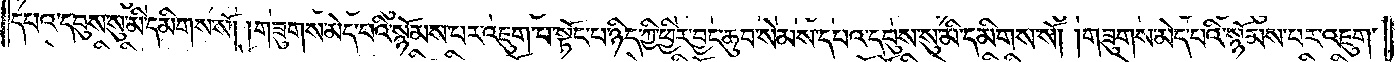དཔའ་དབུས་སུ་མི་དམིགས་སོ། །གཟུགས་མེད་པའི་སྙོམས་པར་འཇུག་པ་སྟོང་པ་ཉིད་ཀྱི་ཕྱིར་བྱང་ཆུབ་སེམས་དཔའ་དབུས་སུ་མི་དམིགས་སོ། །གཟུགས་མེད་པའི་སྙོམས་པར་འཇུག་
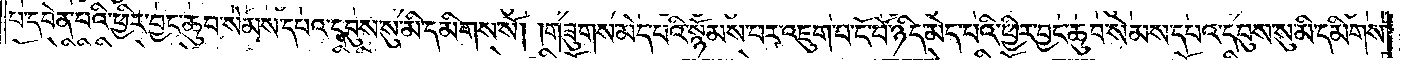པ་དབེན་པའི་ཕྱིར་བྱང་ཆུབ་སེམས་དཔའ་དབུས་སུ་མི་དམིགས་སོ། །གཟུགས་མེད་པའི་སྙོམས་པར་འཇུག་པ་ངོ་བོ་ཉིད་མེད་པའི་ཕྱིར་བྱང་ཆུབ་སེམས་དཔའ་དབུས་སུ་མི་དམིགས་
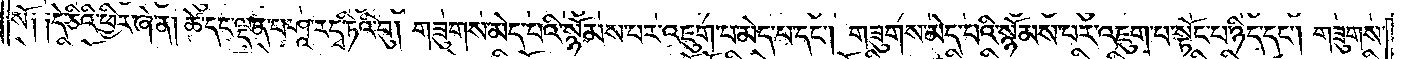སོ༑ ༑དེ་ཅིའི་ཕྱིར་ཞེ་ན། ཚེ་དང་ལྡན་པ་ཤཱ་རདྭ་ཏིའི་བུ། གཟུགས་མེད་པའི་སྙོམས་པར་འཇུག་པ་མེད་པ་དང༌། གཟུགས་མེད་པའི་སྙོམས་པར་འཇུག་པ་སྟོང་པ་ཉིད་དང༌། གཟུགས་
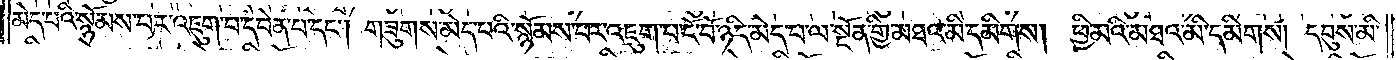མེད་པའི་སྙོམས་པར་འཇུག་པ་དབེན་པ་དང༌། གཟུགས་མེད་པའི་སྙོམས་པར་འཇུག་པ་ངོ་བོ་ཉིད་མེད་པ་ལ་སྔོན་གྱི་མཐའ་མི་དམིགས། ཕྱི་མའི་མཐའ་མི་དམིགས། དབུས་མི་
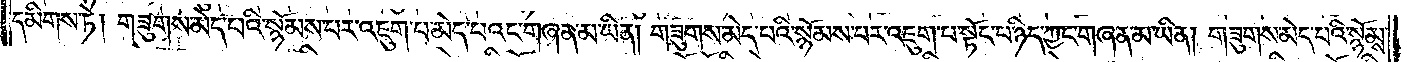དམིགས་ཏེ། གཟུགས་མེད་པའི་སྙོམས་པར་འཇུག་པ་མེད་པའང་གཞན་མ་ཡིན། གཟུགས་མེད་པའི་སྙོམས་པར་འཇུག་པ་སྟོང་པ་ཉིད་ཀྱང་གཞན་མ་ཡིན། གཟུགས་མེད་པའི་སྙོམས་
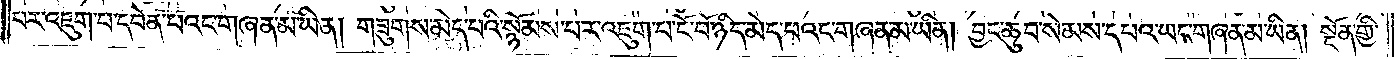པར་འཇུག་པ་དབེན་པའང་གཞན་མ་ཡིན། གཟུགས་མེད་པའི་སྙོམས་པར་འཇུག་པ་ངོ་བོ་ཉིད་མེད་པའང་གཞན་མ་ཡིན། བྱང་ཆུབ་སེམས་དཔའ་ཡང་གཞན་མ་ཡིན། སྔོན་གྱི་
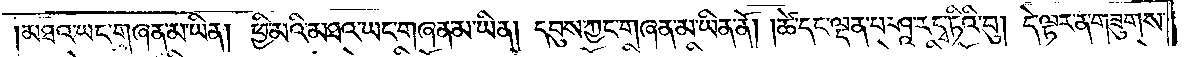མཐའ་ཡང་གཞན་མ་ཡིན། ཕྱི་མའི་མཐའ་ཡང་གཞན་མ་ཡིན། དབུས་ཀྱང་གཞན་མ་ཡིན་ནོ། །ཚེ་དང་ལྡན་པ་ཤཱ་རདྭ་ཏིའི་བུ། དེ་ལྟར་ན་གཟུགས་
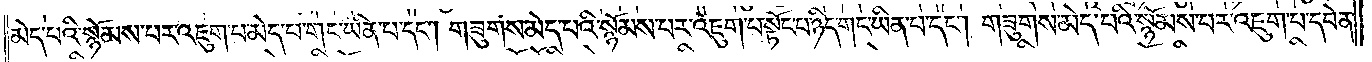མེད་པའི་སྙོམས་པར་འཇུག་པ་མེད་པ་གང་ཡིན་པ་དང༌། གཟུགས་མེད་པའི་སྙོམས་པར་འཇུག་པ་སྟོང་པ་ཉིད་གང་ཡིན་པ་དང༌། གཟུགས་མེད་པའི་སྙོམས་པར་འཇུག་པ་དབེན་
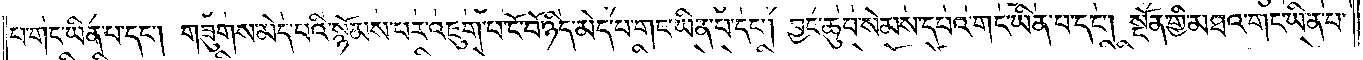པ་གང་ཡིན་པ་དང༌། གཟུགས་མེད་པའི་སྙོམས་པར་འཇུག་པ་ངོ་བོ་ཉིད་མེད་པ་གང་ཡིན་པ་དང༌། བྱང་ཆུབ་སེམས་དཔའ་གང་ཡིན་པ་དང༌། སྔོན་གྱི་མཐའ་གང་ཡིན་པ་
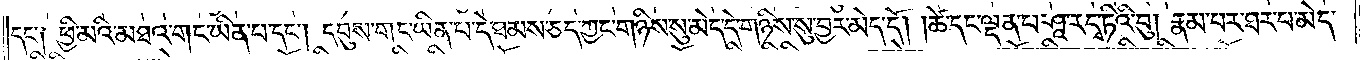དང་༑ ཕྱི་མའི་མཐའ་གང་ཡིན་པ་དང༌། དབུས་གང་ཡིན་པ་དེ་ཐམས་ཅད་ཀྱང་གཉིས་སུ་མེད་དེ་གཉིས་སུ་བྱར་མེད་དོ། །ཚེ་དང་ལྡན་པ་ཤཱ་རདྭ་ཏིའི་བུ། རྣམ་པར་ཐར་པ་མེད་
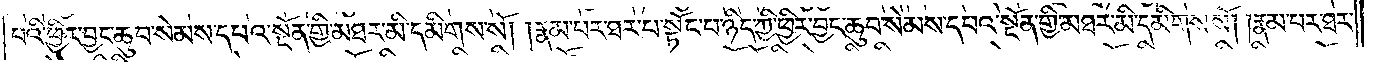པའི་ཕྱིར་བྱང་ཆུབ་སེམས་དཔའ་སྔོན་གྱི་མཐར་མི་དམིགས་སོ། །རྣམ་པར་ཐར་པ་སྟོང་པ་ཉིད་ཀྱི་ཕྱིར་བྱང་ཆུབ་སེམས་དཔའ་སྔོན་གྱི་མཐར་མི་དམིགས་སོ། །རྣམ་པར་ཐར་
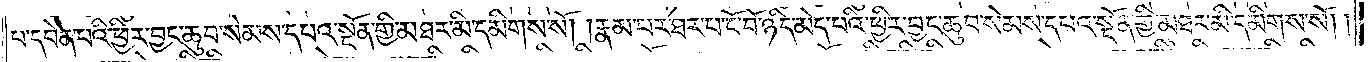པ་དབེན་པའི་ཕྱིར་བྱང་ཆུབ་སེམས་དཔའ་སྔོན་གྱི་མཐར་མི་དམིགས་སོ། །རྣམ་པར་ཐར་པ་ངོ་བོ་ཉིད་མེད་པའི་ཕྱིར་བྱང་ཆུབ་སེམས་དཔའ་སྔོན་གྱི་མཐར་མི་དམིགས་སོ། །
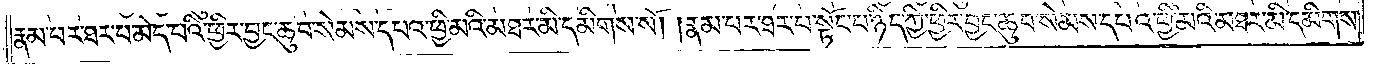རྣམ་པར་ཐར་པ་མེད་པའི་ཕྱིར་བྱང་ཆུབ་སེམས་དཔའ་ཕྱི་མའི་མཐར་མི་དམིགས་སོ། །རྣམ་པར་ཐར་པ་སྟོང་པ་ཉིད་ཀྱི་ཕྱིར་བྱང་ཆུབ་སེམས་དཔའ་ཕྱི་མའི་མཐར་མི་དམིགས་
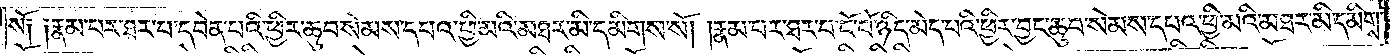སོ༑ ༑རྣམ་པར་ཐར་པ་དབེན་པའི་ཕྱིར་བྱང་ཆུབ་སེམས་དཔའ་ཕྱི་མའི་མཐར་མི་དམིགས་སོ། །རྣམ་པར་ཐར་པ་ངོ་བོ་ཉིད་མེད་པའི་ཕྱིར་བྱང་ཆུབ་སེམས་དཔའ་ཕྱི་མའི་མཐར་མི་དམིགས་
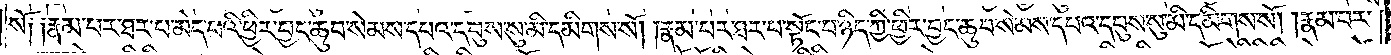སོ༑ ༑རྣམ་པར་ཐར་པ་མེད་པའི་ཕྱིར་བྱང་ཆུབ་སེམས་དཔའ་དབུས་སུ་མི་དམིགས་སོ། །རྣམ་པར་ཐར་པ་སྟོང་པ་ཉིད་ཀྱི་ཕྱིར་བྱང་ཆུབ་སེམས་དཔའ་དབུས་སུ་མི་དམིགས་སོ། །རྣམ་པར་
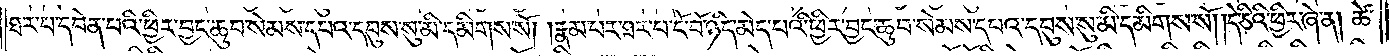ཐར་པ་དབེན་པའི་ཕྱིར་བྱང་ཆུབ་སེམས་དཔའ་དབུས་སུ་མི་དམིགས་སོ། །རྣམ་པར་ཐར་པ་ངོ་བོ་ཉིད་མེད་པའི་ཕྱིར་བྱང་ཆུབ་སེམས་དཔའ་དབུས་སུ་མི་དམིགས་སོ། །དེ་ཅིའི་ཕྱིར་ཞེ་ན། ཚེ་
